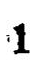1
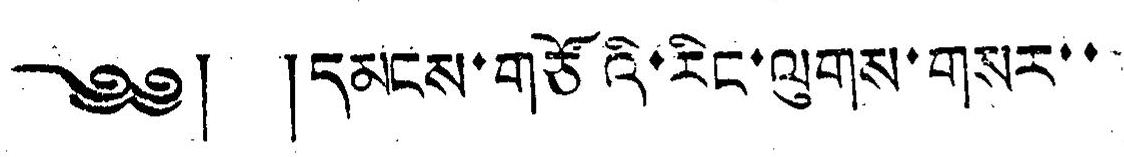༄༅། །དམངས་གཙོའི་རིང་ལུགས་གསར་་
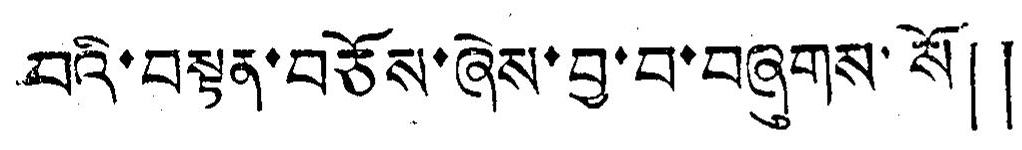བའི་བསྟན་བཅོས་ཞེས་བྱ་བ་བཞུགས་སོ། །
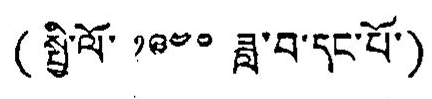(སྤྱི་ལོ་ ༡༩༤༠ ཟླ་བ་དང་པོ་)
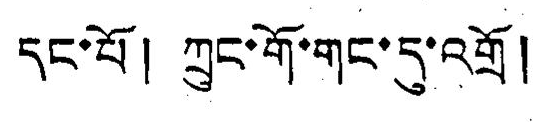དང་པོ། ཀྲུང་གོ་གང་དུ་འགྲོ།
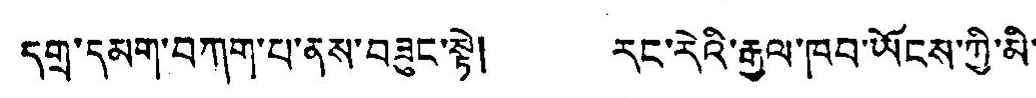དགྲ་དམག་བཀག་པ་ནས་བཟུང་སྟེ། རང་རེའི་རྒྱལ་ཁབ་ཡོངས་ཀྱི་མི་
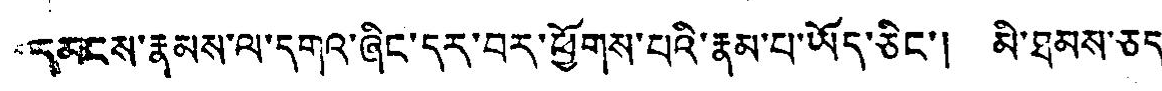དནངས་རྣམས་ལ་དགའ་ཞིང་དར་བར་ཕྱོགས་པའི་རྣམ་པ་ཡོད་ཅིང་། མི་ཐམས་ཅད
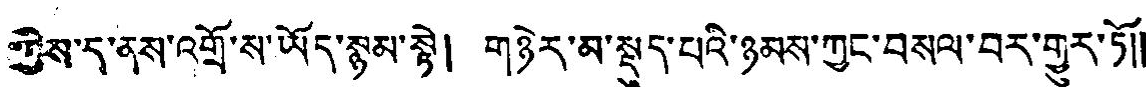ཀྱིས་ད་ནས་འགྲོ་ས་ཡོད་སྙམ་སྟེ། གཉེར་མ་སྡུད་པའི་ཉམས་ཀྱང་བསལ་བར་གྱུར་ཏོ༎
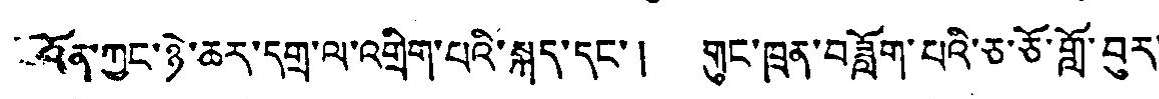འོན་ཀྱང་ཉེ་ཆར་དགྲ་ལ་འགྲིག་པའི་སྐད་དང་། གུང་ཁྲན་བཟློག་པའི་ཅ་ཅོ་གློ་བུར་
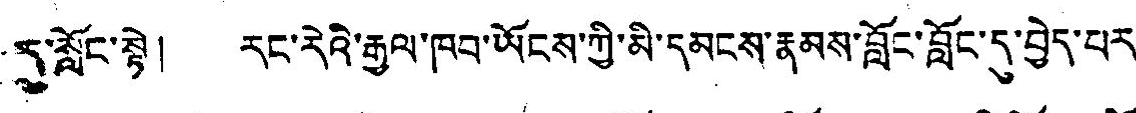དུ་སློང་སྟེ། རང་རེའི་རྒྱལ་ཁབ་ཡོངས་ཀྱི་མི་དམངས་རྣམས་བློང་བློང་དུ་བྱེད་པར་
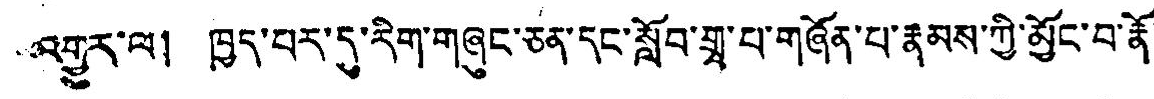འགྱུར་ལ། ཁྱད་བར་དུ་རིག་གཞུང་ཅན་དང་སློབ་གྲྭ་པ་གཞོན་པ་རྣམས་ཀྱི་མྱོང་བ་རྣོ་
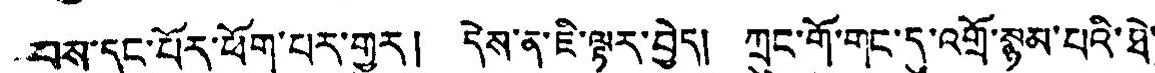བས་དང་པོར་ཕོག་པར་གྱུར། དེས་ན་ཇི་ལྟར་བྱེད། ཀྲུང་གོ་གང་དུ་འགྲོ་སྙམ་པའི་ཐེ་
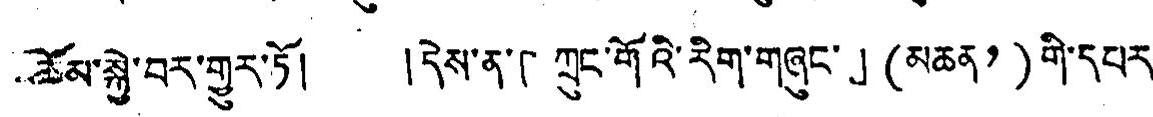ཚོམ་སྐྱེ་བར་གྱུར་ཏོ། །དེས་ན་「ཀྲུང་གོའི་རིག་གཞུང་」(མཆན ༡)གི་དཔར་
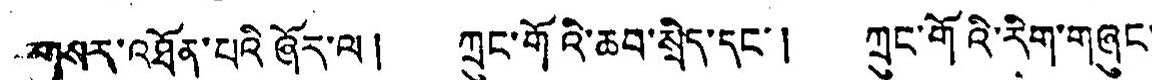གསར་འཐོན་པའི་ཞོར་ལ ། ཀྲུང་གོའི་ཆབ་སྲིད་དང་། ཀྲུང་གོའི་རིག་གཞུང་
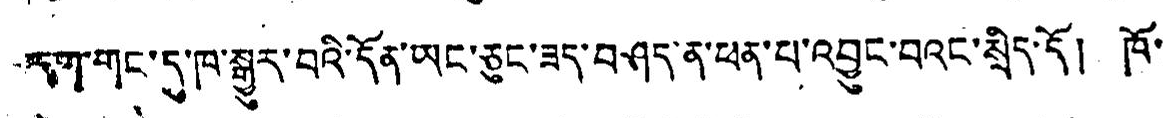དག་གང་དུ་ཁ་སྒྱུར་བའི་དོན་ཡང་ཅུང་ཟད་བཤད་ན་ཕན་པ་འབྱུང་བའང་སྲིད་དོ། ཁོ་
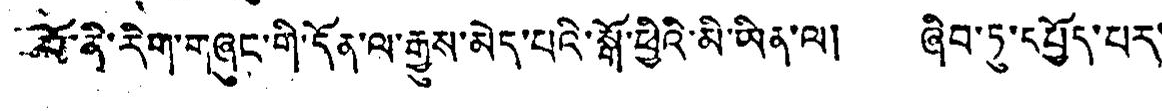བོ་ནི་རིག་གཞུང་གི་དོན་ལ་རྒྱུས་མེད་པའི་སྒྲོ་ཕྱིའི་མི་ཡིན་ལ། ཞིབ་ཏུ་དཔྱོད་པར་
